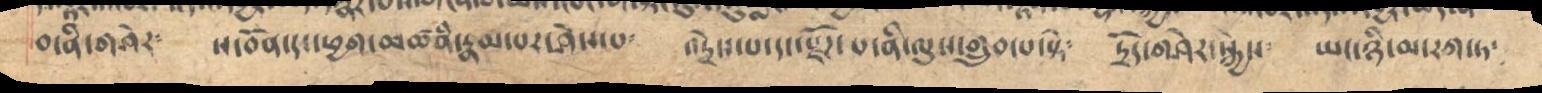བ་ནི་གཤེར༴ ས་བོན་དང་ཕྱག་མཚནི་རྣམ་པར་ཤེས་པ༴ འདྲེས་པ་དང་སྫོཌ་པ་ནི་ལུས་གྲུབ་པ་སྟེ༴  དྲོད་གཤེར་སྐྱེས༴ ཡང་ཉི་མ་ཏཀ་ཏ༴
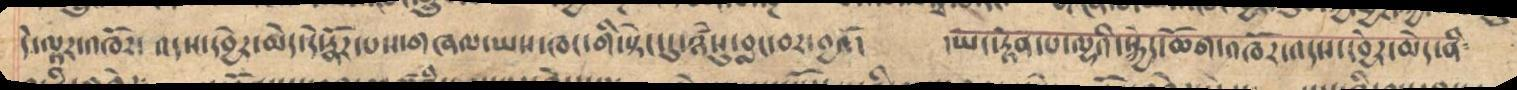དེ་ལྟར་འཁོར་འདས་དབྱེར་མེད་དེ་རྣོར་པས་གཞལ་ཡས་ཁང་གི་སྟེང་དུ་ཉཾསུ་བླང་བར་བྱའོ། །ཡང་རྟེན་པ་ལྷའི་སྐྱེད་ཆོག་འཁོར་འདས་དབྱེར་མེད་ནི༴
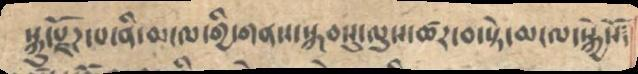སྐུ་སྫོཌ་པ་ནི་མངལ་གྱི་གནས་སྐབསུ་ལུས་ཚར་བ་སྟེ་མངལ་སྐྱེསོ༴
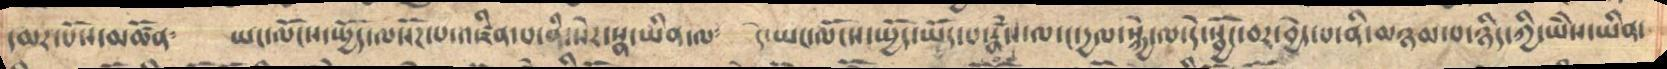དམར་པོས་མཚོན༴ ཡང་ལོངས་སྤྱོད་ལསོཌ་པ་འཛིན་པ་ནི་སེར་སྣ་ཡིན་ལ༴ དེ་ཡང་ལོངས་སྤྱོད་ཡོད་པ་རྣཾས་ལ་ང་དྱལ་སྐྱེ་ལ་དེ་སྦྱོང་བར་བྱེད་པ་ནི་མཉམ་པ་ཉིད་ཀྱི་ཡཻས་ཡིན་
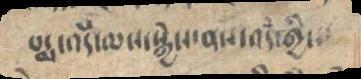པདྨ་འདཾ་ལས་སྐྱེས་ནས་འདཾ་གྱི་
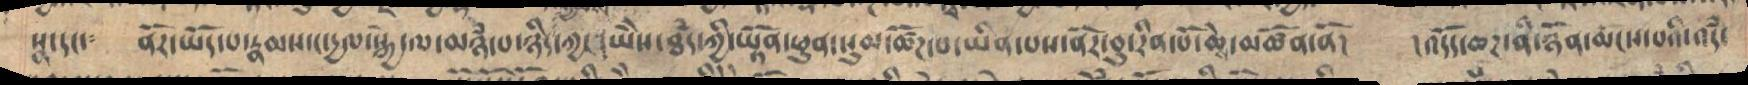སྣ་དང་༴ ནོར་ཡོད་པ་རྣམས་ང་དྱལ་སྐྱེ་ལ་མཉཾ་པ་ཉིད་ཀྱང་ཡཻས་ཐཾད་ཀྱི་ཡྟོན་ཕུན་སུམ་ཚོཌ་པ་ཡིན་པས་ནོར་བུ་རིན་པོ་ཆེ་མཚོན་ནོ། །འདོད་ཆཌ་ནི་ཉོན་མོངས་པའི་འདཾ་
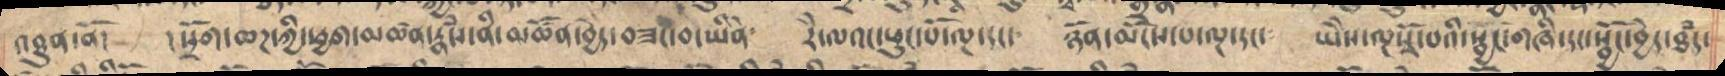འཐུན་ནོ། །སྲོག་ཆཌ་ཀྱི་ཕྱག་མཚན་རྣཾས་ནི་མཚོན་བྱེད་བཟང་བ་ཡིནོ༴ རཻ་ལའང་ཕུང་པོ་ལྔ་དང་ ཉོན་མོངས་པ་ལྔ་དང་ ཡཻས་ལྔསྭོ་པའི་སྦཡང་གཞི་དང་སྦྱོང་བྱེད་ཐཾད་
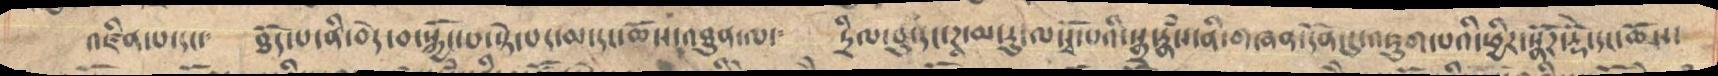འཛིན་པ་དང་༴ ཐོད་པ་ནི་བདེ་བ་སྐྱོང་པ་སྟེ་པད་མ་དང་ཆོས་འཐུན་ལ་༴ དྲིལ་བུ་དང་ཊྭ་མ་རུ་ལསྭོ་པའི་སྒྲ་རྙཾས་ནི་གཞན་དོན་དུ་འཇུག་པའི་ཕྱིར་སྣོཌ་རྡོེ་དང་ཆོས་
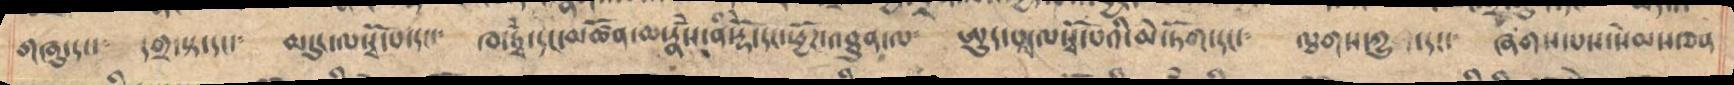གཞུ་དང༴  དགྲ་སྟ་དང་༴   མདུང་ལ་སྭོ་པ་དང་༴  ཁ་ཏྭཾ་དང་མཚོན་མ་རྣཾས་ནི་སྟོ་དང་ཕྱོར་འཐུན་ལ་  ཨུང་པལ་ལསྭོ་པའི་མེ་ཏོག་དང་༴  ལྕགས་དཀྱུ་དང་༴  ཞགས་པས་སེམས་ཅན
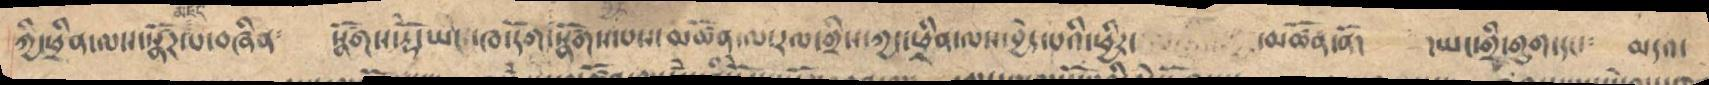ཀྱི་ཕྲིན་ལས་སྣོཌ་མཛད་པ་བཞིན༴  སྣོགས་རྡོེ་ཡང་ཁ་དོག་སྣོགས་པས་མཚོན་ལ་རལ་གྱིས་ཀྱང་ཕྲིན་ལས་བྱེད་པའི་ཕྱིར་   མཚོན་ནོ།  །ཡང་གྲི་གུག་དང་༴   མདའ་
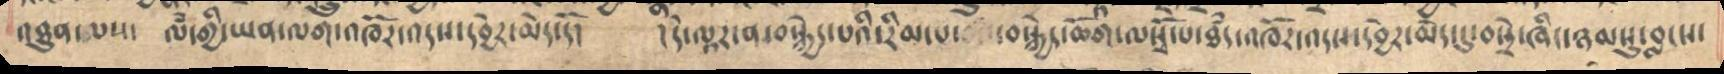འཐུན་པས་ ལཾ་གྱི་ཡན་ལག་འཁོར་འདས་དབྱེར་མེད་དོ། །དེ་ལྟར་ན་བསྐྱེད་པའི་རིམ་པ་ བསྐྱེད་ཆོག་ལསྭོ་པ་ཐཾད་འཁོར་འདས་དབྱེར་མེད་དུ་བསྲེ་ཞིང་ཉམསུ་བླངས་
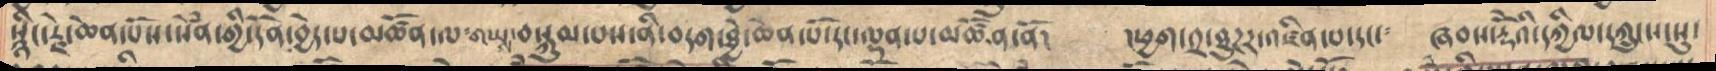སྙིང་རྗེ་ཆེན་པོསང་སོན་གྱིཔ་དོན་བྱེད་པ་ལཚོན་ལ་གཡས་བསྐུམ་པས་ནི་བདག་ཐེ་ཆེན་པོ་དང་མཚོན་ནཔ།  །ཕྱག་༢་ཐུཌར་འཛིན་པ་དང་༴   ཞབས་རྡོེའི་དཀྱིལ་དཀྲུངས་སུ་
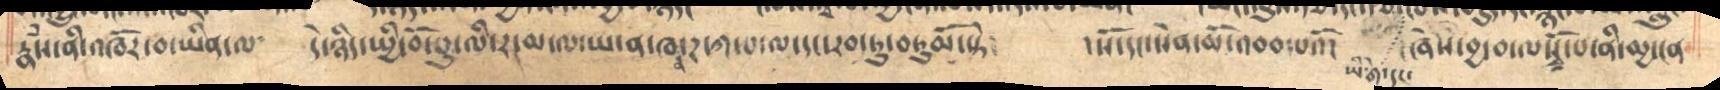རྣཾས་ནི་འཁོར་བ་ཡིན་ལ་   དེ་ཉིད་སྤྱི་བོ་པུ་ལི་ར་མ་ཡ་ན་ཁན་ཌ་ཀ་པ་ལ་དང་རབ་ཏུ་བཏུམོ་སྟེ༴  །སོ་དང་སེན་མོ་འབབ་པའོ།   ཡི་གེ་དང་ཞིས་བྱ་བ་ལསྭོ་པ་ནི་མྱ་ངན
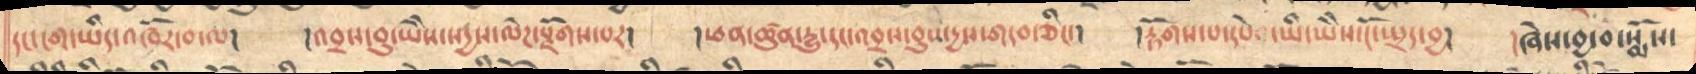དང་ངག་ཡིད་འཁོར་བ་ལ། །འབྲས་བུ་ཡེེས་སདྱས་ལེཌ་རྫོགས་པར།  །ཕན་ཚུན་རྱུ་དང་འབྲས་བུས་དྱས་གདབ་ཅིང་།  །རྟོགས་པ་དཔེ་ཡི་ཡེེས་ངོ་སྤྲད་བྱ།  །ཞེས་བྱ་བ་སྨོས་
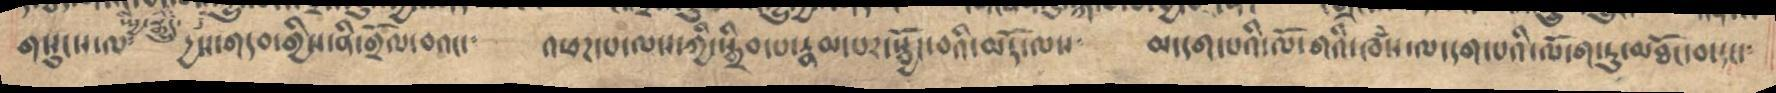གསུངས་ལ་སྤྱི་རྒྱུད་དྱས་གདབ་གྱིས་ནི་གྲོལ་བའང༴  འཕཌ་པ་ལས་ཀྱི་སྒྲིབ་པ་རྣམ་པར་སྦྱོར་བའི་མདོ་ལས་  མ་དག་པའི་ལོ་གའི་ཁཾས་ལ་དག་པའི་ལོ་ག་ཏུ་མཐོང་བ་དང་༴
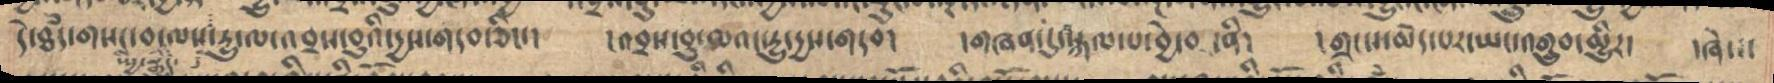དེ་ཐཾད་གསང་བ་སྤྱི་རྒྱུད་ལས་དྱུ་ལ་འབྲས་བུའི་དྱས་གདབ་ཅིང་།  །འབྲས་བུ་ལའང་རྱུ་དྱས་གདབ།  །གཞན་དུ་བསྐལ་པ་བྱེ་བ་ནི།  །གྲངས་མེད་པར་ཡང་འགྲུབ་མྱིུར།  །ཞེས་
